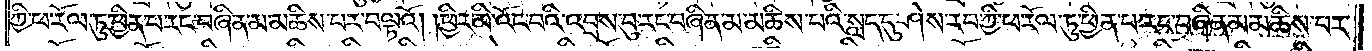ཀྱི་ཕ་རོལ་ཏུ་ཕྱིན་པ་རང་བཞིན་མ་མཆིས་པར་བལྟའོ། །ཕྱིར་མི་འོང་བའི་འབྲས་བུ་རང་བཞིན་མ་མཆིས་པའི་སླད་དུ་ཤེས་རབ་ཀྱི་ཕ་རོལ་ཏུ་ཕྱིན་པ་རང་བཞིན་མ་མཆིས་པར་
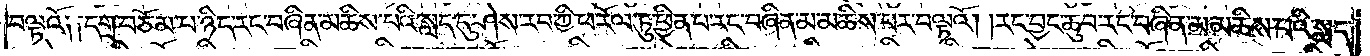བལྟའོ༑ ༑དགྲ་བཅོམ་པ་ཉིད་རང་བཞིན་མཆིས་པའི་སླད་དུ་ཤེས་རབ་ཀྱི་ཕ་རོལ་ཏུ་ཕྱིན་པ་རང་བཞིན་མ་མཆིས་པར་བལྟའོ། །རང་བྱང་ཆུབ་རང་བཞིན་མ་མཆིས་པའི་སླད་
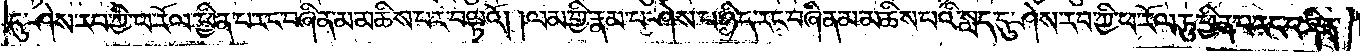དུ་ཤེས་རབ་ཀྱི་ཕ་རོལ་ཏུ་ཕྱིན་པ་རང་བཞིན་མ་མཆིས་པར་བལྟའོ། །ལམ་གྱི་རྣམ་པ་ཤེས་པ་ཉིད་རང་བཞིན་མ་མཆིས་པའི་སླད་དུ་ཤེས་རབ་ཀྱི་ཕ་རོལ་ཏུ་ཕྱིན་པ་རང་བཞིན་
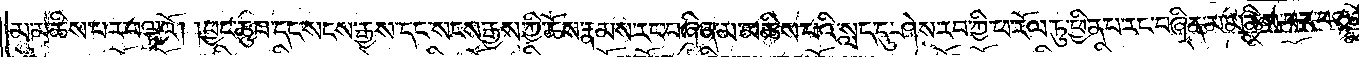མ་མཆིས་པར་བལྟའོ། །བྱང་ཆུབ་དང་སངས་རྒྱས་དང་སངས་རྒྱས་ཀྱི་ཆོས་རྣམས་རང་བཞིན་མ་མཆིས་པའི་སླད་དུ་ཤེས་རབ་ཀྱི་ཕ་རོལ་ཏུ་ཕྱིན་པ་རང་བཞིན་མ་མཆིས་པར་བལྟའོ། །
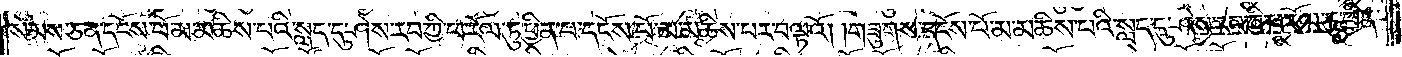སེམས་ཅན་དངོས་པོ་མ་མཆིས་པའི་སླད་དུ་ཤེས་རབ་ཀྱི་ཕ་རོལ་ཏུ་ཕྱིན་པ་དངོས་པོ་མ་མཆིས་པར་བལྟའོ། །གཟུགས་དངོས་པོ་མ་མཆིས་པའི་སླད་དུ་ཤེས་རབ་ཀྱི་ཕ་རོལ་ཏུ་ཕྱིན་
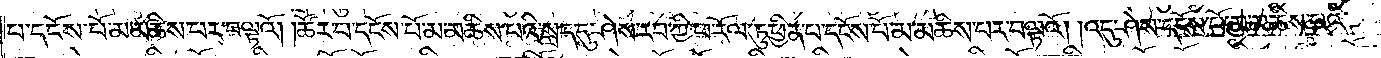པ་དངོས་པོ་མ་མཆིས་པར་བལྟའོ། །ཚོར་བ་དངོས་པོ་མ་མཆིས་པའི་སླད་དུ་ཤེས་རབ་ཀྱི་ཕ་རོལ་ཏུ་ཕྱིན་པ་དངོས་པོ་མ་མཆིས་པར་བལྟའོ། །འདུ་ཤེས་དངོས་པོ་མ་མཆིས་པའི་
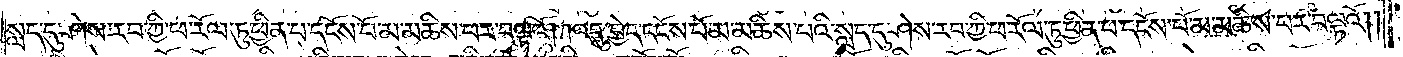སླད་དུ་ཤེས་རབ་ཀྱི་ཕ་རོལ་ཏུ་ཕྱིན་པ་དངོས་པོ་མ་མཆིས་པར་བལྟའོ། །འདུ་བྱེད་དངོས་པོ་མ་མཆིས་པའི་སླད་དུ་ཤེས་རབ་ཀྱི་ཕ་རོལ་ཏུ་ཕྱིན་པ་དངོས་པོ་མ་མཆིས་པར་བལྟའོ། །
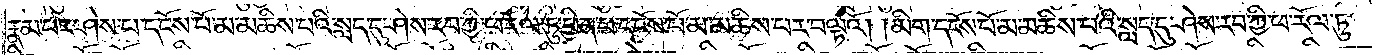རྣམ་པར་ཤེས་པ་དངོས་པོ་མ་མཆིས་པའི་སླད་དུ་ཤེས་རབ་ཀྱི་ཕ་རོལ་ཏུ་ཕྱིན་པ་དངོས་པོ་མ་མཆིས་པར་བལྟའོ། །མིག་དངོས་པོ་མ་མཆིས་པའི་སླད་དུ་ཤེས་རབ་ཀྱི་ཕ་རོལ་ཏུ་
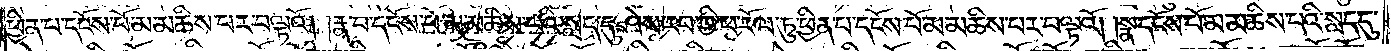ཕྱིན་པ་དངོས་པོ་མ་མཆིས་པར་བལྟའོ། །རྣ་བ་དངོས་པོ་མ་མཆིས་པའི་སླད་དུ་ཤེས་རབ་ཀྱི་ཕ་རོལ་ཏུ་ཕྱིན་པ་དངོས་པོ་མ་མཆིས་པར་བལྟའོ། །སྣ་དངོས་པོ་མ་མཆིས་པའི་སླད་དུ་
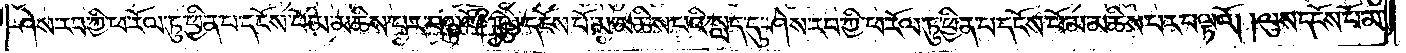ཤེས་རབ་ཀྱི་ཕ་རོལ་ཏུ་ཕྱིན་པ་དངོས་པོ་མ་མཆིས་པར་བལྟའོ། །ལྕེ་དངོས་པོ་མ་མཆིས་པའི་སླད་དུ་ཤེས་རབ་ཀྱི་ཕ་རོལ་ཏུ་ཕྱིན་པ་དངོས་པོ་མ་མཆིས་པར་བལྟའོ། །ལུས་དངོས་པོ་མ་
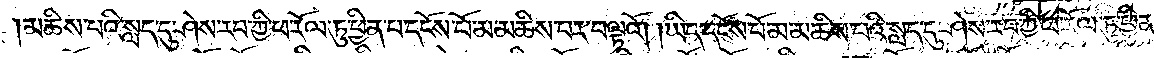མཆིས་པའི་སླད་དུ་ཤེས་རབ་ཀྱི་ཕ་རོལ་ཏུ་ཕྱིན་པ་དངོས་པོ་མ་མཆིས་པར་བལྟའོ། །ཡིད་དངོས་པོ་མ་མཆིས་པའི་སླད་དུ་ཤེས་རབ་ཀྱི་ཕ་རོལ་ཏུ་ཕྱིན་
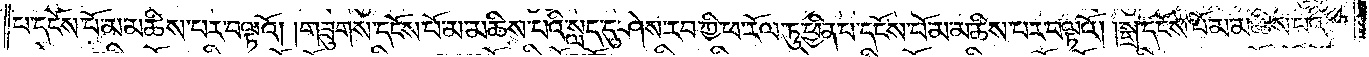པ་དངོས་པོ་མ་མཆིས་པར་བལྟའོ། །གཟུགས་དངོས་པོ་མ་མཆིས་པའི་སླད་དུ་ཤེས་རབ་ཀྱི་ཕ་རོལ་ཏུ་ཕྱིན་པ་དངོས་པོ་མ་མཆིས་པར་བལྟའོ། །སྒྲ་དངོས་པོ་མ་མཆིས་པའི་སླད་
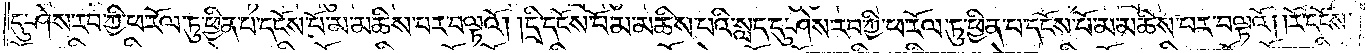དུ་ཤེས་རབ་ཀྱི་ཕ་རོལ་ཏུ་ཕྱིན་པ་དངོས་པོ་མ་མཆིས་པར་བལྟའོ། །དྲི་དངོས་པོ་མ་མཆིས་པའི་སླད་དུ་ཤེས་རབ་ཀྱི་ཕ་རོལ་ཏུ་ཕྱིན་པ་དངོས་པོ་མ་མཆིས་པར་བལྟའོ། །རོ་དངོས་
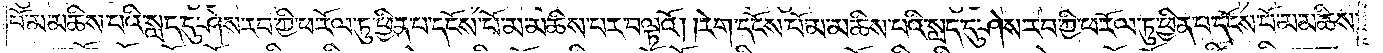པོ་མ་མཆིས་པའི་སླད་དུ་ཤེས་རབ་ཀྱི་ཕ་རོལ་ཏུ་ཕྱིན་པ་དངོས་པོ་མ་མཆིས་པར་བལྟའོ། །རེག་དངོས་པོ་མ་མཆིས་པའི་སླད་དུ་ཤེས་རབ་ཀྱི་ཕ་རོལ་ཏུ་ཕྱིན་པ་དངོས་པོ་མ་མཆིས་
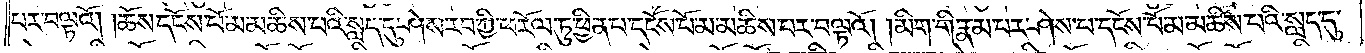པར་བལྟའོ། །ཆོས་དངོས་པོ་མ་མཆིས་པའི་སླད་དུ་ཤེས་རབ་ཀྱི་ཕ་རོལ་ཏུ་ཕྱིན་པ་དངོས་པོ་མ་མཆིས་པར་བལྟའོ། །མིག་གི་རྣམ་པར་ཤེས་པ་དངོས་པོ་མ་མཆིས་པའི་སླད་དུ་
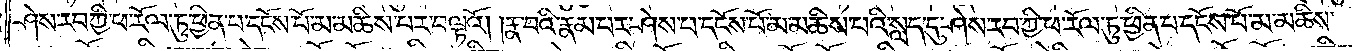ཤེས་རབ་ཀྱི་ཕ་རོལ་ཏུ་ཕྱིན་པ་དངོས་པོ་མ་མཆིས་པར་བལྟའོ། །རྣ་བའི་རྣམ་པར་ཤེས་པ་དངོས་པོ་མ་མཆིས་པའི་སླད་དུ་ཤེས་རབ་ཀྱི་ཕ་རོལ་ཏུ་ཕྱིན་པ་དངོས་པོ་མ་མཆིས་
